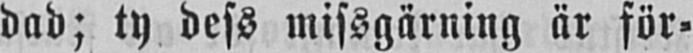dad; ty dess missgärning är för-
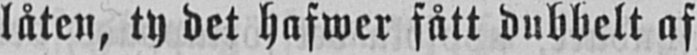låten, ty det hafwer fått dubbelt af
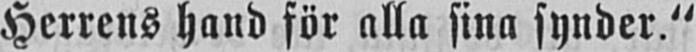Herrens hand för alla sina synder."
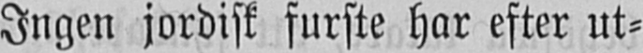Ingen jordisk furste har efter ut-
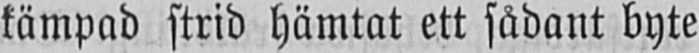kämpad strid hämtat ett sådant byte
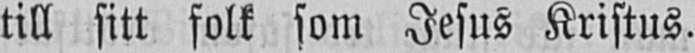till sitt folk som Jesus Kristus.
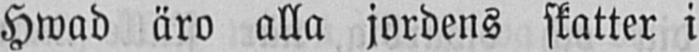Hwad äro alla jordens skatter i
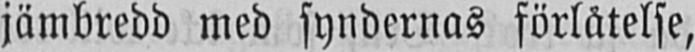jämbredd med syndernas förlåtelse,
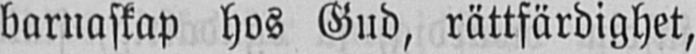barnaskap hos Gud, rättfärdighet,
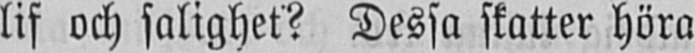lif och salighet? Dessa skatter höra
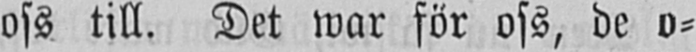oss till. Det war för oss, de o-
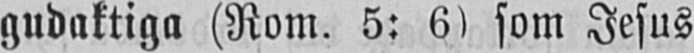gudaktiga (Rom. 5: 6) som Jesus
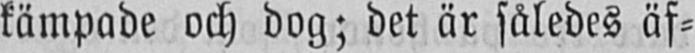kämpade och dog; det är således äf-
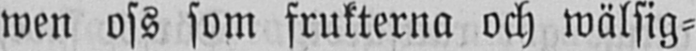wen oss som frukterna och wälsig-
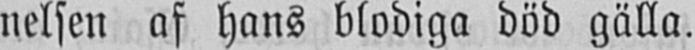nelsen af hans blodiga död gälla.
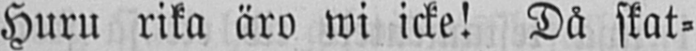Huru rika äro wi icke! Då skat-
